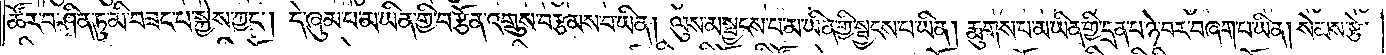ཚོར་བ་ཤིན་ཏུ་མི་བཟང་པ་སྐྱེས་ཀྱང༌། དེ་ཞུམ་པ་མ་ཡིན་གྱི་བརྩོན་འགྲུས་བརྩམས་པ་ཡིན། ལུས་མ་སྦྱངས་པ་མ་ཡིན་གྱི་སྦྱངས་པ་ཡིན། རྨུགས་པ་མ་ཡིན་གྱི་དྲན་པ་ཉེ་བར་བཞག་པ་ཡིན། སེམས་རྩེ་
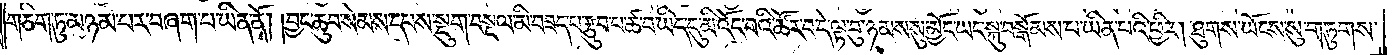གཅིག་ཏུ་མཉམ་པར་བཞག་པ་ཡིན་ནོ། །བྱང་ཆུབ་སེམས་དཔས་སྡུག་བསྔལ་མི་བཟད་པ་རྩུབ་པ་ཚ་བ་ཡིད་དུ་མི་འོང་བའི་ཚོར་བ་དེ་ལྟ་བུ་ཉམས་སུ་མྱོང་ཡང་སྐུ་བསྒོམས་པ་ཡིན་པའི་ཕྱིར། ཐུགས་ཡོངས་སུ་གཏུགས་
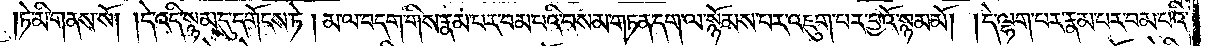ཏེ་མི་གནས་སོ། །དེ་འདི་སྙམ་དུ་དགོངས་ཏེ། མ་ལ་བདག་གིས་རྣམ་པར་བམ་པའི་བསམ་གཏན་དག་ལ་སྙོམས་པར་འཇུག་པར་བྱའོ་སྙམ་མོ། །དེ་ལྷག་པར་རྣམ་པར་བམ་པའི་
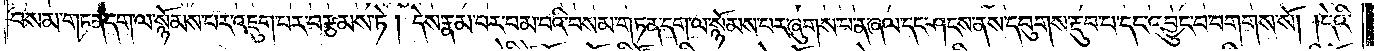བསམ་གཏན་དག་ལ་སྙོམས་པར་འཇུག་པར་བརྩམས་ཏེ། དེས་རྣམ་པར་བམ་པའི་བསམ་གཏན་དག་ལ་སྙོམས་པར་ཞུགས་པ་ན་ཞལ་དང་ཤངས་ནས་དབུགས་རྔུབ་པ་དང་འབྱུང་བ་བགགས་སོ། །དེའི་
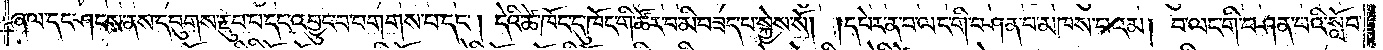ཞལ་དང་ཤངས་ནས་དབུགས་རྔུབ་པ་དང་འབྱུང་བ་བགགས་པ་དང༌། དེའི་ཚེ་ཁོང་དུ་ཁོང་གི་ཚོར་བ་མི་བཟད་པ་སྐྱེས་སོ། །དཔེར་ན་བ་ལང་གི་བཤན་པ་མཁས་བའམ། བ་ལང་གི་བཤན་པའི་སློབ་
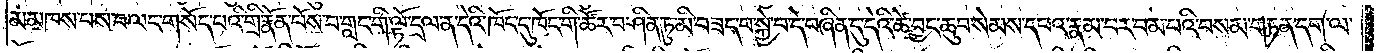མ་མཁས་པས་བ་ལང་གསོད་པའི་གྲི་རྣོན་པོས་བ་གླང་གི་ལྟོ་དྲལ་ན་དེའི་ཁོང་དུ་ཁོང་གི་ཚོར་བ་ཤིན་ཏུ་མི་བཟད་པ་སྐྱེ་བ་དེ་བཞིན་དུ་དེའི་ཚེ་བྱང་ཆུབ་སེམས་དཔའ་རྣམ་པར་བམ་པའི་བསམ་གཏན་དག་ལ་
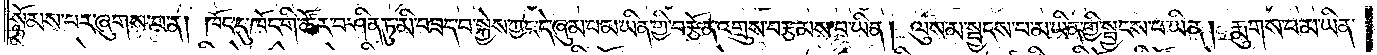སྙོམས་པར་ཞུགས་པ་ན། ཁོང་དུ་ཁོང་གི་ཚོར་བ་ཤིན་ཏུ་མི་བཟད་པ་སྐྱེས་ཀྱང་དེ་ཞུམ་པ་མ་ཡིན་གྱི་བརྩོན་འགྲུས་བརྩམས་པ་ཡིན། །ལུས་མ་སྦྱངས་པ་མ་ཡིན་གྱི་སྦྱངས་པ་ཡིན། རྨུགས་པ་མ་ཡིན་
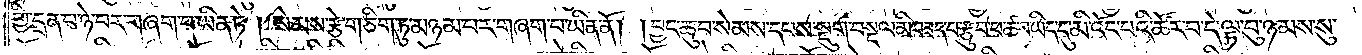གྱི་དྲན་པ་ཉེ་བར་གཞག་པ་ཡིན་ཏེ། སེམས་རྩེ་གཅིག་ཏུ་མཉམ་པར་གཞག་པ་ཡིན་ནོ། །བྱང་ཆུབ་སེམས་དཔས་སྡུག་བསྔལ་མི་བཟད་པ་རྩུབ་པ་ཚ་བ་ཡིད་དུ་མི་འོང་པའི་ཚོར་བ་དེ་ལྟ་བུ་ཉམས་སུ་
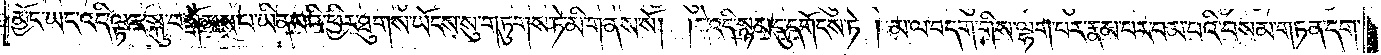མྱོང་ཡང་འདི་ལྟར་སྐུ་བསྒོམས་པ་ཡིན་པའི་ཕྱིར་ཐུགས་ཡོངས་སུ་གཏུགས་ཏེ་མི་གནས་སོ། །དེ་འདི་སྙམ་དུ་དགོངས་ཏེ། མེ་ལ་བདག་གིས་ལྷག་པར་རྣམ་པར་བམ་པའི་བསམ་གཏན་དག་
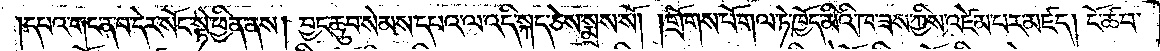དཔའ་གང་ན་བ་དེར་སོང་སྟེ་ཕྱིན་ནས། བྱང་ཆུབ་སེམས་དཔའ་ལ་འདི་སྐད་ཅེས་སྨྲས་སོ། །གྲོགས་པོ་གལ་ཏེ་ཁྱོད་མིའི་ཁ་ཟས་ཀྱིས་འཛེམ་པར་མཛད། ངོ་ཚབ་
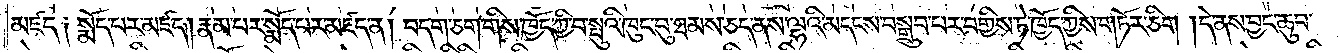མཛད༑ སྨོད་པར་མཛད། རྣམ་པར་སྨོད་པར་མཛད་ན། བདག་ཅག་གིས་ཁྱོད་ཀྱི་བ་སྤུའི་ཁུང་བུ་ཐམས་ཅད་ནས་ལྷའི་མདངས་བསྒྲུབ་པར་བགྱིས་ཏེ་ཁྱོད་ཀྱིས་གཏོར་ཅིག །དེ་ནས་བྱང་ཆུབ་
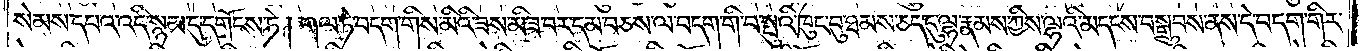སེམས་དཔའ་འདི་སྙམ་དུ་དགོངས་ཏེ། གལ་ཏེ་བདག་གིས་མིའི་ཟས་མི་ཟ་བར་དམ་བཅས་ལ་བདག་གི་བ་སྤུའི་ཁུང་བུ་ཐམས་ཅད་དུ་ལྷ་རྣམས་ཀྱིས་ལྷའི་མདངས་བསྒྲུབས་ནས་དེ་བདག་གིར་
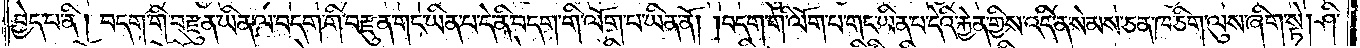བྱེད་པ་ནི། བདག་གི་བརྫུན་ཡིན་ལ་བདག་གི་བརྫུན་གང་ཡིན་པ་དེ་ནི་བདག་གི་ལོག་པ་ཡིན་ནོ། །བདག་གི་ལོག་པ་གང་ཡིན་པ་དེའི་རྐྱེན་གྱིས་འདི་ན་སེམས་ཅན་ཁ་ཅིག་ལུས་ཞིག་སྟེ། ཤི་
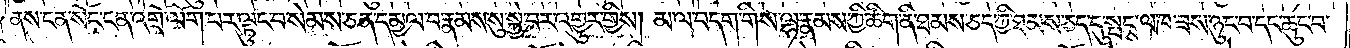ནས་ངན་སོང་ངན་འགྲོ་ལོག་པར་ལྟུང་བ་སེམས་ཅན་དམྱལ་བ་རྣམས་སུ་སྐྱེ་བར་འགྱུར་གྱིས། མ་ལ་བདག་གིས་ལྷ་རྣམས་ཀྱི་ཚིག་ནི་ཐམས་ཅད་ཀྱི་ཐམས་ཅད་དུ་སྤངས་ལ་ཁ་ཟས་ཉུང་བ་དང་ཆུང་བ་
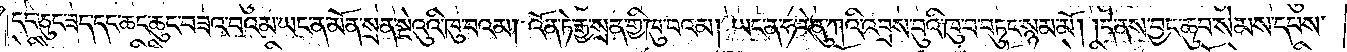དང་ཅུང་ཟད་དང་ཆང་ཆུང་བཟའ་བའམ་ཡང་ན་མོན་སྲན་སྔེའུའི་ཁུ་བའམ། འོན་ཏེ་རྒྱ་སྲན་གྱི་ཁུ་བའམ། ཡང་ན་ཧ་རེ་ནུ་ཀའི་འབྲས་བུའི་ཁུ་བ་བཏུང་སྙམ་མོ། །དེ་ནས་བྱང་ཆུབ་སེམས་དཔས་
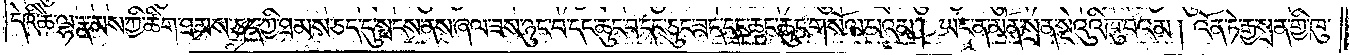དེའི་ཚེ་ལྷ་རྣམས་ཀྱི་ཚིག་ཐམས་ཅད་ཀྱི་ཐམས་ཅད་དུ་སྤངས་ནས་ཞལ་ཟས་ཉུང་བ་དང་ཆུང་བ་དང་ཆུང་ཟད་དང་ཆང་ཆུང་གསོལ་པའམ། ཡང་ན་མོན་སྲན་སྡེའུའི་ཁུ་བའམ། འོན་ཏེ་རྒྱ་སྲན་གྱི་ཁུ་
